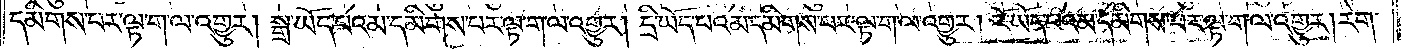དམིགས་པར་ལྟ་ག་ལ་འགྱུར། སྒྲ་ཡོད་པའམ་དམིགས་པར་ལྟ་ག་ལ་འགྱུར། དྲི་ཡོད་པའམ་དམིགས་པར་ལྟ་ག་ལ་འགྱུར། རོ་ཡོད་པའམ་དམིགས་པར་ལྟ་ག་ལ་འགྱུར། རེག་
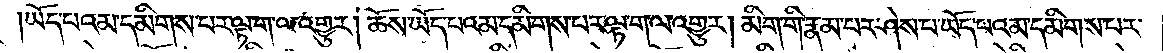ཡོད་པའམ་དམིགས་པར་ལྟ་ག་ལ་འགྱུར། ཆོས་ཡོད་པའམ་དམིགས་པར་ལྟ་ག་ལ་འགྱུར། མིག་གི་རྣམ་པར་ཤེས་པ་ཡོད་པའམ་དམིགས་པར་
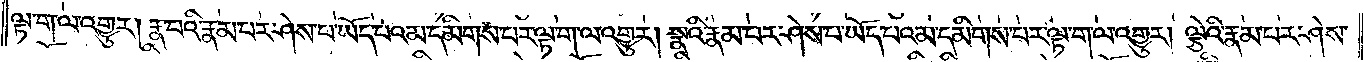ལྟ་ག་ལ་འགྱུར། རྣ་བའི་རྣམ་པར་ཤེས་པ་ཡོད་པའམ་དམིགས་པར་ལྟ་ག་ལ་འགྱུར། སྣའི་རྣམ་པར་ཤེས་པ་ཡོད་པ་འམ་དམིགས་པར་ལྟ་ག་ལ་འགྱུར། ལྕེའི་རྣམ་པར་ཤེས་
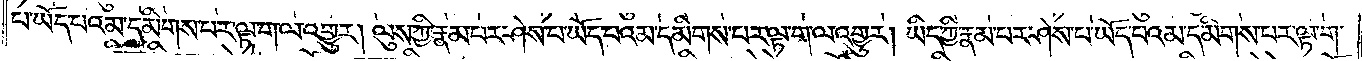པ་ཡོད་པའམ་དམིགས་པར་ལྟ་ག་ལ་འགྱུར། ལུས་ཀྱི་རྣམ་པར་ཤེས་པ་ཡོད་པའམ་དམིགས་པར་ལྟ་ག་ལ་འགྱུར། ཡིད་ཀྱི་རྣམ་པར་ཤེས་པ་ཡོད་པའམ་དམིགས་པར་ལྟ་ག་
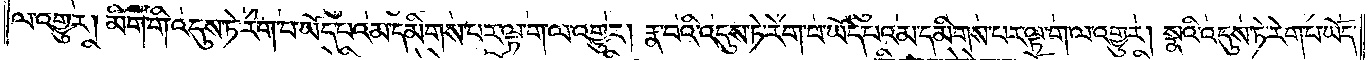ལ་འགྱུར། མིག་གི་འདུས་ཏེ་རེག་པ་ཡོད་པའམ་དམིགས་པར་ལྟ་ག་ལ་འགྱུར། རྣ་བའི་འདུས་ཏེ་རེག་པ་ཡོད་པའམ་དམིགས་པར་ལྟ་ག་ལ་འགྱུར། སྣའི་འདུས་ཏེ་རེག་པ་ཡོད་
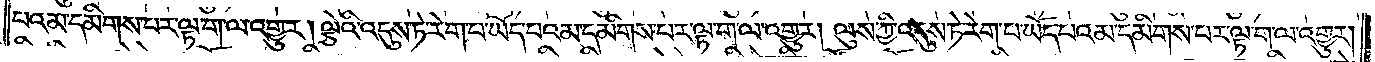པའམ་དམིགས་པར་ལྟ་ག་ལ་འགྱུར། ལྕེའི་འདུས་ཏེ་རེག་པ་ཡོད་པའམ་དམིགས་པར་ལྟ་ག་ལ་འགྱུར། ལུས་ཀྱི་འདུས་ཏེ་རེག་པ་ཡོད་པའམ་དམིགས་པར་ལྟ་ག་ལ་འགྱུར།
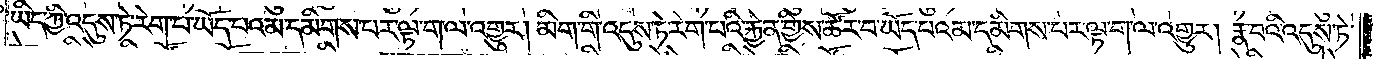ཡིད་ཀྱི་འདུས་ཏེ་རེག་པ་ཡོད་པའམ་དམིགས་པར་ལྟ་ག་ལ་འགྱུར། མིག་གི་འདུས་ཏེ་རེག་པའི་རྐྱེན་གྱིས་ཚོར་བ་ཡོད་པའམ་དམིགས་པར་ལྟ་ག་ལ་འགྱུར། རྣ་བའི་འདུས་ཏེ་
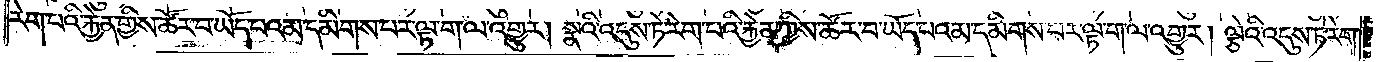རེག་པའི་རྐྱེན་གྱིས་ཚོར་བ་ཡོད་པའམ་དམིགས་པར་ལྟ་ག་ལ་འགྱུར། སྣའི་འདུས་ཏེ་རེག་པའི་རྐྱེན་གྱིས་ཚོར་བ་ཡོད་པའམ་དམིགས་པར་ལྟ་ག་ལ་འགྱུར། ལྕེའི་འདུས་ཏེ་རེག་
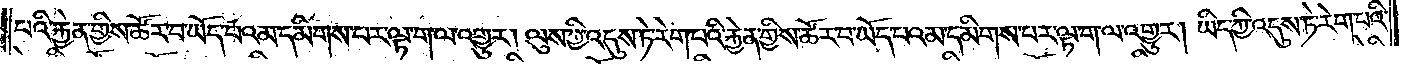པའི་རྐྱེན་གྱིས་ཚོར་བ་ཡོད་པའམ་དམིགས་པར་ལྟ་ག་ལ་འགྱུར། ལུས་ཀྱི་འདུས་ཏེ་རེག་པའི་རྐྱེན་གྱིས་ཚོར་བ་ཡོད་པ་འམ་དམིགས་པར་ལྟ་ག་ལ་འགྱུར། ཡིད་ཀྱི་འདུས་ཏེ་རེག་པའི་
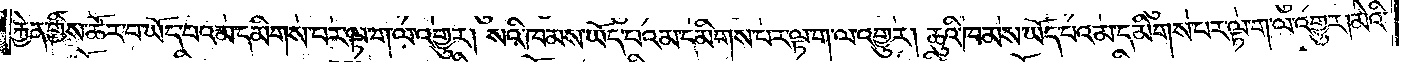རྐྱེན་གྱིས་ཚོར་བ་ཡོད་པའམ་དམིགས་པར་ལྟ་ག་ལ་འགྱུར། སའི་ཁམས་ཡོད་པའམ་དམིགས་པར་ལྟ་ག་ལ་འགྱུར། ཆུའི་ཁམས་ཡོད་པ་འམ་དམིགས་པར་ལྟ་ག་ལ་འགྱུར། མེའི་
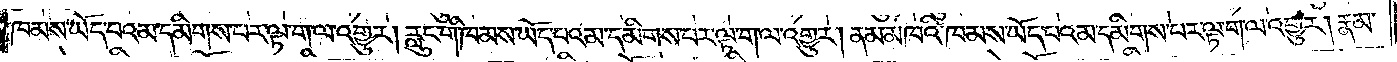ཁམས་ཡོད་པའམ་དམིགས་པར་ལྟ་ག་ལ་འགྱུར། རླུང་གི་ཁམས་ཡོད་པའམ་དམིགས་པར་ལྟ་ག་ལ་འགྱུར། ནམ་མཁའི་ཁམས་ཡོད་པ་འམ་དམིགས་པར་ལྟ་ག་ལ་འགྱུར། རྣམ་
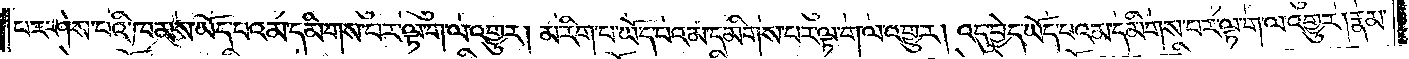པར་ཤེས་པའི་ཁམས་ཡོད་པའམ་དམིགས་པར་ལྟ་ག་ལ་འགྱུར། མ་རིག་པ་ཡོད་པའམ་དམིགས་པར་ལྟ་ག་ལ་འགྱུར། འདུ་བྱེད་ཡོད་པའམ་དམིགས་པར་ལྟ་ག་ལ་འགྱུར། རྣམ་
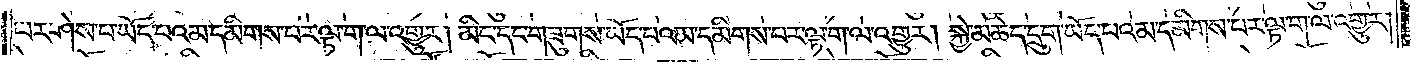པར་ཤེས་པ་ཡོད་པའམ་དམིགས་པར་ལྟ་ག་ལ་འགྱུར། མིང་དང་གཟུགས་ཡོད་པའམ་དམིགས་པར་ལྟ་ག་ལ་འགྱུར། སྐྱེ་མཆེད་དྲུག་ཡོད་པའམ་དམིགས་པར་ལྟ་ག་ལ་འགྱུར།
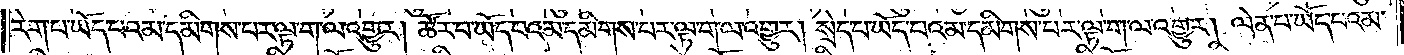རེག་པ་ཡོད་པའམ་དམིགས་པར་ལྟ་ག་ལ་འགྱུར། ཚོར་བ་ཡོད་པའམ་དམིགས་པར་ལྟ་ག་ལ་འགྱུར། སྲེད་པ་ཡོད་པའམ་དམིགས་པར་ལྟ་ག་ལ་འགྱུར། ལེན་པ་ཡོད་པའམ་
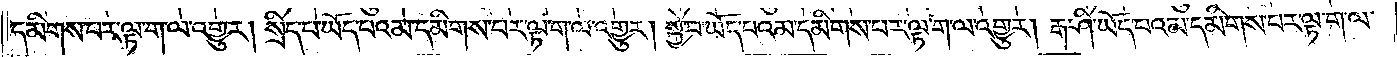དམིགས་པར་ལྟ་ག་ལ་འགྱུར། སྲིད་པ་ཡོད་པའམ་དམིགས་པར་ལྟ་ག་ལ་འགྱུར། སྐྱེ་བ་ཡོད་པའམ་དམིགས་པར་ལྟ་ག་ལ་འགྱུར། རྒ་ཤི་ཡོད་པའམ་དམིགས་པར་ལྟ་ག་ལ་
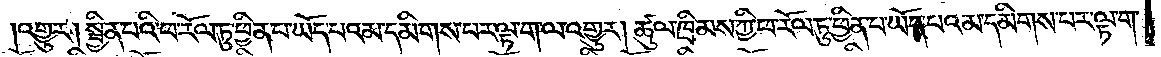འགྱུར། སྦྱིན་པའི་ཕ་རོལ་ཏུ་ཕྱིན་པ་ཡོད་པའམ་དམིགས་པར་ལྟ་ག་ལ་འགྱུར། ཚུལ་ཁྲིམས་ཀྱི་ཕ་རོལ་ཏུ་ཕྱིན་པ་ཡོད་པའམ་དམིགས་པར་ལྟ་ག་
